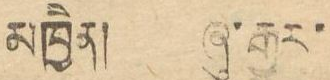མཁྱེེན། ཞུ་རྒྱུར་
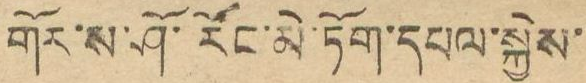གོར་ས་ཤོ་རོང་མེ་ཏོག་དཔལ་སྐྱེས་
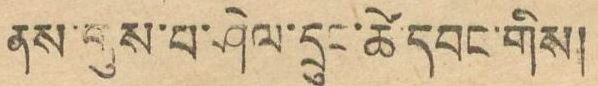ནས་གུས་པ་ཤེལ་དྲུང་ཚེ་དབང་གིས།
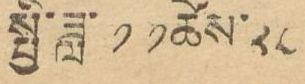སྤྱི་ཟླ་ ༡༡ ཚེས་ ༢༨
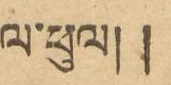ལ་ཕུལ།།
